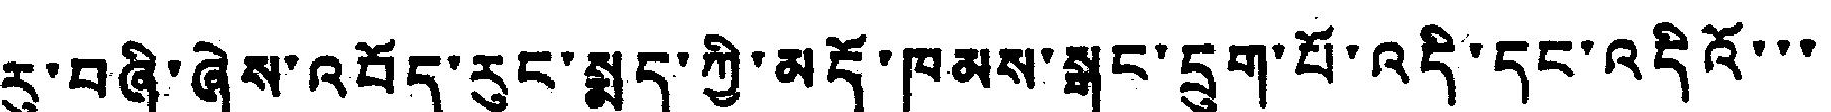རུ་བཞི་ཞེས་འབོད་རུང་སྨད་ཀྱི་མདོ་ཁམས་སྒང་དྲུག་པོ་འདི་ད་འདིའོ་་་
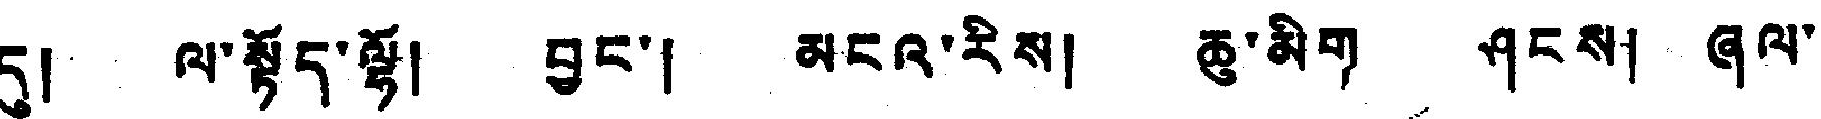དུ། ལ་སྟོད་ལྷོ། བྱང་། མངའ་རིས། ཆུ་མིག ཤངས། ཞལ་
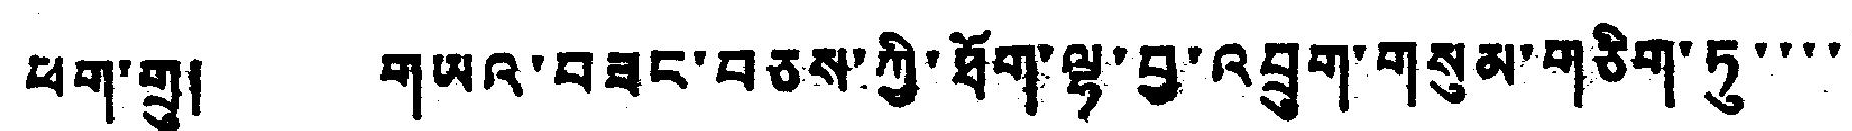ཕག་གྲུ། གཡའ་བཟང་བཅས་ཀྱི་ཐོག་ལྷ་བྱ་འབྲུག་གསུམ་གཅིག་ཏུ་་་་
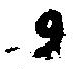9
